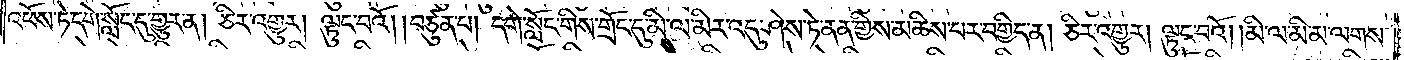འཕོས་ཏེ་དགེ་སློང་དུ་གྱུར་ན། ཅིར་འགྱུར། ལྟུང་བའོ། །བཙུན་པ། དགེ་སློང་གིས་གྲོང་དུ་མི་ལ་མིར་འདུ་ཤེས་ཏེ་ནན་གྱིས་མཆིས་པར་བགྱིད་ན། ཅིར་འགྱུར། ལྟུང་བའོ། །མི་ལ་མི་མ་ལགས་
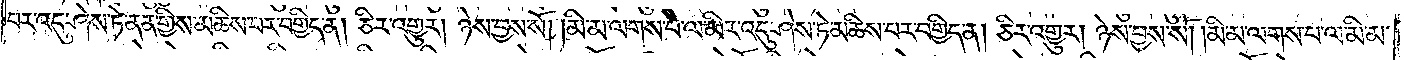པར་འདུ་ཤེས་ཏེ་ནན་གྱིས་མཆིས་པར་བགྱིད་ན། ཅིར་འགྱུར། ཉེས་བྱས་སོ། །མི་མ་ལགས་པ་ལ་མིར་འདུ་ཤེས་ཏེ་མཆིས་པར་བགྱིད་ན། ཅིར་འགྱུར། ཉེས་བྱས་སོ། །མི་མ་ལགས་པ་ལ་མི་མ་
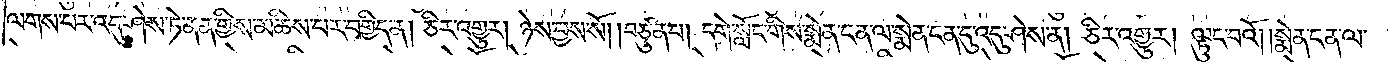ལགས་པར་འདུ་ཤེས་ཏེ་ནན་གྱིས་མཆིས་པར་བགྱིད་ན། ཅིར་འགྱུར། ཉེས་བྱས་སོ། །བཙུན་པ། དགེ་སློང་གིས་སྨེན་ངན་ལ་སྨེན་ངན་དུ་འདུ་ཤེས་ན། ཅིར་འགྱུར། ལྟུང་བའོ། །སྨེན་ངན་ལ་
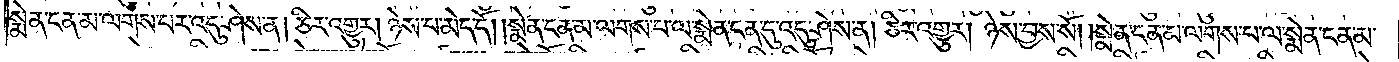སྨེན་ངན་མ་ལགས་པར་འདུ་ཤེས་ན། ཅིར་འགྱུར། ཉེས་པ་མེད་དོ། །སྨེན་ངན་མ་ལགས་པ་ལ་སྨེན་ངན་དུ་འདུ་ཤེས་ན། ཅིར་འགྱུར། ཉེས་བྱས་སོ། །སྨེན་ངན་མ་ལགས་པ་ལ་སྨེན་ངན་མ་
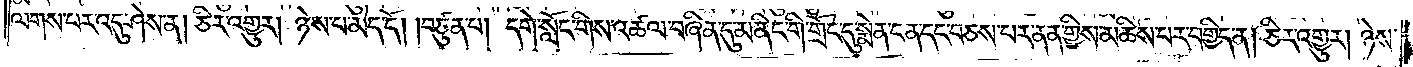ལགས་པར་འདུ་ཤེས་ན། ཅིར་འགྱུར། ཉེས་པ་མེད་དོ། །བཙུན་པ། དགེ་སློང་གིས་འཚལ་བཞིན་དུ་མ་ནིང་གི་གྲོང་དུ་སྨེན་ངན་དང་བཅས་པར་ནན་གྱིས་མཆིས་པར་བགྱིད་ན། ཅིར་འགྱུར། ཉེས་
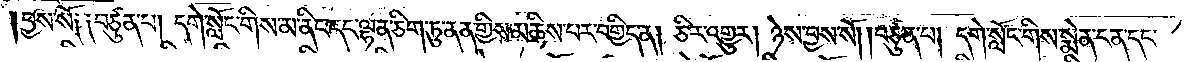བྱས་སོ༑ ༑བཙུན་པ། དགེ་སློང་གིས་མ་ནིང་དང་ལྷན་ཅིག་ཏུ་ནན་གྱིས་མཆིས་པར་བགྱིད་ན། ཅིར་འགྱུར། ཉེས་བྱས་སོ། །བཙུན་པ། དགེ་སློང་གིས་སྨེན་ངན་དང་
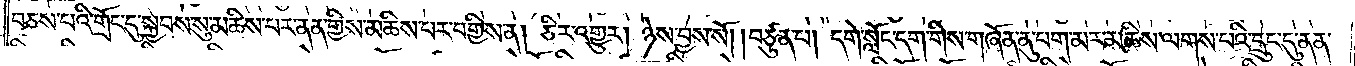བཅས་པའི་གྲོང་དུ་སྐྱབས་སུ་མཆིས་པར་ནན་གྱིས་མཆིས་པར་བགྱིས་ན། ཅིར་འགྱུར། ཉེས་བྱས་སོ། །བཙུན་པ། དགེ་སློང་དག་གིས་གཞོན་ནུ་བག་མར་མཆིས་ལགས་པའི་དྲུང་དུ་ནན་
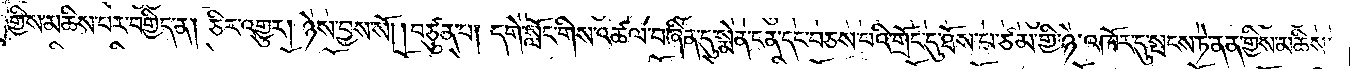གྱིས་མཆིས་པར་བགྱིད་ན། ཅིར་འགྱུར། ཉེས་བྱས་སོ། །བཙུན་པ། དགེ་སློང་གིས་འཚལ་བཞིན་དུ་སྨེན་ངན་དང་བཅས་པའི་གྲོང་དུ་ཐོས་པ་ཙམ་གྱི་ཉེ་འཁོར་དུ་སྤངས་ཏེ་ནན་ཏན་གྱིས་མཆིས་
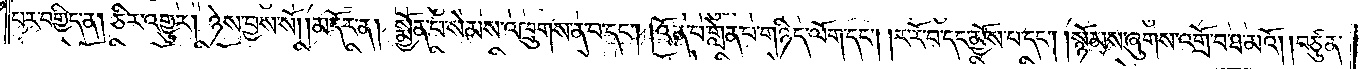པར་བགྱིད་ན། ཅིར་འགྱུར། ཉེས་བྱས་སོ། །མདོར་ན། སྨྱོན་པ་སེམས་འཁྲུགས་ན་བ་དང༌། །འོན་པ་གླེན་པ་གཉིད་ལོག་དང༌། །ར་རོ་བ་དང་མྱོས་པ་དང༌། །སྙོམས་ཞུགས་འགྲོ་བ་ཐ་མའོ། །བཙུན་
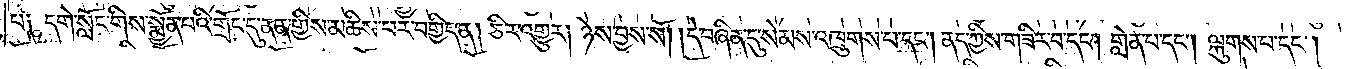པ༑ དགེ་སློང་གིས་སྨྱོན་པའི་གྲོང་དུ་ནན་གྱིས་མཆིས་པར་བགྱིད་ན། ཅིར་འགྱུར། ཉེས་བྱས་སོ། །དེ་བཞིན་དུ་སེམས་འཁྲུགས་པ་དང༌། ནད་ཀྱིས་གཟིར་བ་དང༌། གླེན་པ་དང༌། ལྐུགས་པ་དང༌།
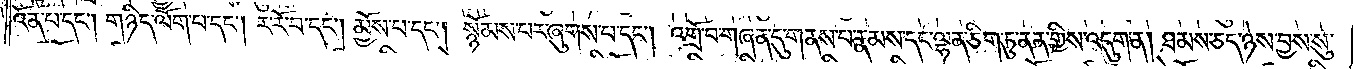འོན་པ་དང༌། གཉིད་ལོག་པ་དང༌། ར་རོ་བ་དང༌། མྱོས་པ་དང༌། སྙོམས་པར་ཞུགས་པ་དང༌། འགྲོ་བ་གཞན་དུ་གནས་པ་རྣམས་དང་ལྷན་ཅིག་ཏུ་ནན་གྱིས་འདུག་ན། ཐམས་ཅད་ཉེས་བྱས་སུ་
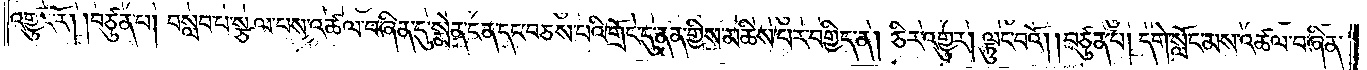འགྱུར་རོ། །བཙུན་པ། བསླབ་པ་སྩལ་བས་འཚལ་བཞིན་དུ་སྨེན་ངན་དང་བཅས་པའི་གྲོང་དུ་ནན་གྱིས་མཆིས་པར་བགྱིད་ན། ཅིར་འགྱུར། ལྟུང་བའོ། །བཙུན་པ། དགེ་སློང་མས་འཚལ་བཞིན་
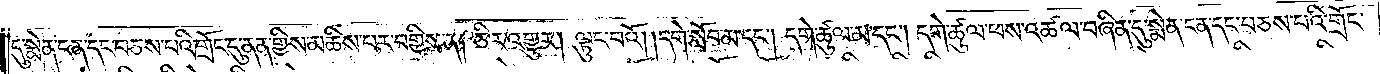དུ་སྨེན་ངན་དང་བཅས་པའི་གྲོང་དུ་ནན་གྱིས་མཆིས་པར་བགྱིས་ན། ཅིར་འགྱུར། ལྟུང་བའོ། །དགེ་སློབ་མ་དང༌། དགེ་ཚུལ་མ་དང༌། དགེ་ཚུལ་ཕས་འཚལ་བཞིན་དུ་སྨེན་ངན་དང་བཅས་པའི་གྲོང་
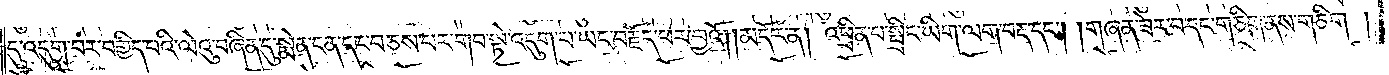དུ་འདུག་པར་བགྱིད་པའི་ལེའུ་བཞིན་དུ་སྨེན་ངན་དང་བཅས་པར་གབ་སྟེ་འདུག་པ་ཡང་བརྗོད་པར་བྱའོ།    །མདོར་ན། འཕྲིན་པ་སྤྲིང་ཡིག་ལག་བརྡ་དང༌། །གཞན་ཟེར་བ་དང་གཅིག་ནས་གཅིག །
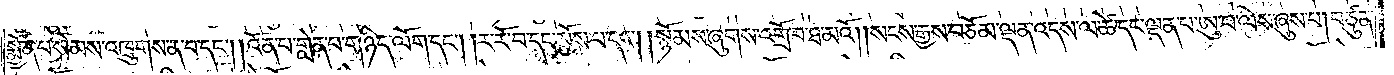སྨྱོན་པ་སེམས་འཁྲུགས་ན་བ་དང༌། །འོན་པ་གླེན་པ་གཉིད་ལོག་དང༌། །ར་རོ་བ་དང་མྱོས་པ་དང༌། །སྙོམས་ཞུགས་འགྲོ་བ་ཐ་མའོ། །སངས་རྒྱས་བཅོམ་ལྡན་འདས་ལ་ཚེ་དང་ལྡན་པ་ཨུ་པ་ལིས་ཞུས་པ། བཙུན་
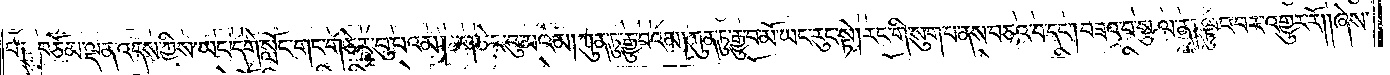པ༑ བཅོམ་ལྡན་འདས་ཀྱིས་ཡང་དགེ་སློང་གང་གཅེར་བུ་པའམ། གཅེར་བུ་མའམ། ཀུན་ཏུ་རྒྱུ་བའམ། ཀུན་ཏུ་རྒྱུ་བ་མོ་ཡང་རུང་སྟེ། རང་གི་སུག་པ་ནས་བཅའ་བ་དང༌། བཟའ་བ་སྩལ་ན། ལྟུང་བར་འགྱུར་རོ། །ཞེས་
